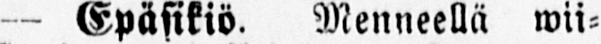— Epäsikiö. Menneellä wii-
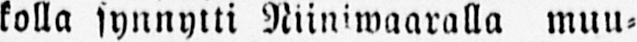kalla synnytti Niiniwaaralla muu-
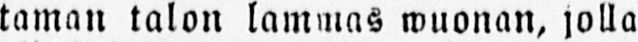taman talon lammas wuonan, jolla
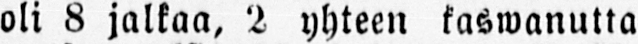oli 8 jalkaa, 2 yhteen kaswanutta
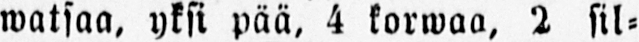watsaa, yksi pää, 4 korwaa, 2 sil-
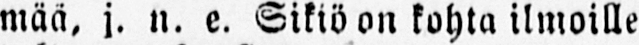mää, j. n. e. Sikiö on kohta ilmoille
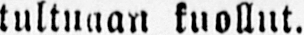tultuaan kuollut.
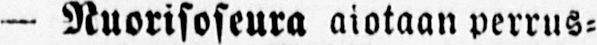— Nuorisoseura aiotaan perrus-
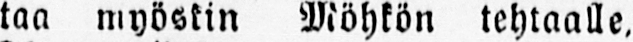taa myöskin Möhkön tehtaalle,
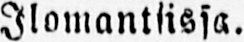Ilomantsissa.
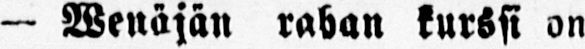— Wenäjän rahan kurssi on
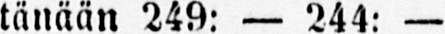tänään 249: — 244: —
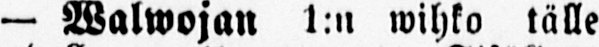— Walwojan 1:n wihko tälle
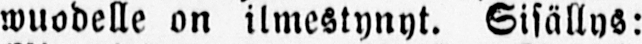wuodelle on ilmestynyt. Sisällys:
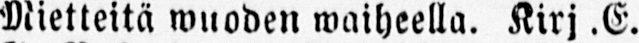Mietteitä wuoden waiheella. Kirj .E.
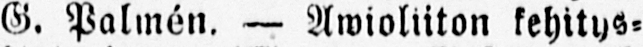G. Palmén. — Awioliiton kehitys-
